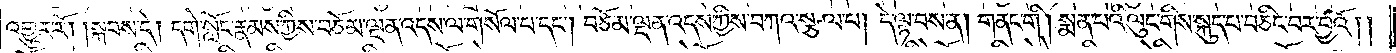འགྱུར་རོ། །སྐབས་དེ། དགེ་སློང་རྣམས་ཀྱིས་བཅོམ་ལྡན་འདས་ལ་གསོལ་པ་དང༌། བཅོམ་ལྡན་འདས་ཀྱིས་བཀའ་སྩལ་པ། དེ་ལྟ་བས་ན། གནང་གི། སྨན་པའི་ལུང་གིས་སྐུད་པ་བཅིང་བར་བྱའོ། །
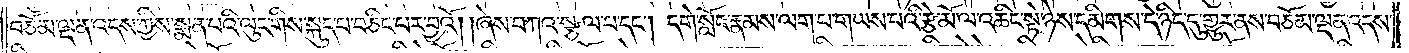བཅོམ་ལྡན་འདས་ཀྱིས་སྨན་པའི་ལུང་གིས་སྐུད་པ་བཅིང་བར་བྱའོ། །ཞེས་བཀའ་སྩལ་པ་དང༌། དགེ་སློང་རྣམས་ལག་པ་གཡས་པའི་རྩེ་མོ་ལ་འཆིང་སྟེ་ཉེས་དམིགས་དེ་ཉིད་དུ་གྱུར་ནས་བཅོམ་ལྡན་འདས་
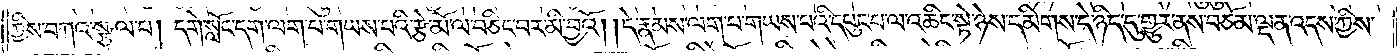ཀྱིས་བཀའ་སྩལ་པ། དགེ་སློང་དག་ལག་པ་གཡས་པའི་རྩེ་མོ་ལ་བཅིང་བར་མི་བྱའོ། །དེ་རྣམས་ལག་པ་གཡས་པའི་དཔུང་པ་ལ་འཆིང་སྟེ་ཉེས་དམིགས་དེ་ཉིད་དུ་གྱུར་ནས་བཅོམ་ལྡན་འདས་ཀྱིས་
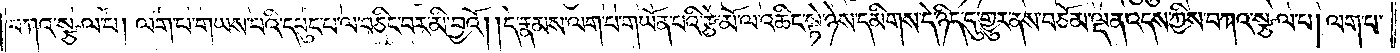བཀའ་སྩལ་པ། ལག་པ་གཡས་པའི་དཔུང་པ་ལ་བཅིང་བར་མི་བྱའོ། །དེ་རྣམས་ལག་པ་གཡོན་པའི་རྩེ་མོ་ལ་འཆིང་སྟེ་ཉེས་དམིགས་དེ་ཉིད་དུ་གྱུར་ནས་བཅོམ་ལྡན་འདས་ཀྱིས་བཀའ་སྩལ་པ། ལག་པ་
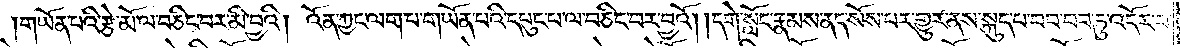།གཡོན་པའི་རྩེ་མོ་ལ་བཅིང་བར་མི་བྱའི། འོན་ཀྱང་ལག་པ་གཡོན་པའི་དཔུང་པ་ལ་བཅིང་བར་བྱའོ། །དགེ་སློང་རྣམས་ནད་སོས་པར་གྱུར་ནས་སྐུད་པ་བབ་བབ་ཏུ་འདོར་བ་
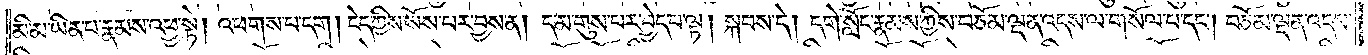མི་མ་ཡིན་པ་རྣམས་འཕྱ་སྟེ། འཕགས་པ་དག །ངེད་ཀྱིས་སོས་པར་བྱས་ན། ད་མ་གུས་པར་བྱེད་པ་ལྟ། སྐབས་དེ། དགེ་སློང་རྣམས་ཀྱིས་བཅོམ་ལྡན་འདས་ལ་གསོལ་པ་དང༌། བཅོམ་ལྡན་འདས་
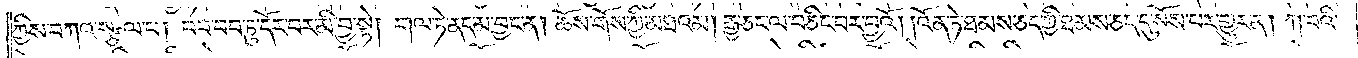ཀྱིས་བཀའ་སྩལ་པ། བབ་བབ་ཏུ་དོར་བར་མི་བྱ་སྟེ། གལ་ཏེ་ནད་མ་བྱང་ན། ཆོས་གོས་ཀྱི་མཐའམ། རྒྱ་ཅང་ལ་བཅིང་བར་བྱའོ། །འོན་ཏེ་ཐམས་ཅད་ཀྱི་ཐམས་ཅད་དུ་སོས་པར་གྱུར་ན། ཀ་བའི་
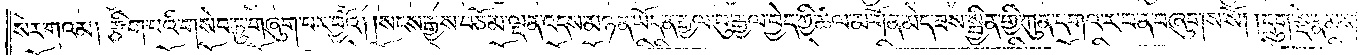སེར་གའམ། རྩིག་པའི་གསེབ་ཏུ་གཞུག་པར་བྱའོ། །སངས་རྒྱས་བཅོམ་ལྡན་འདས་མཉན་ཡོད་ན་རྒྱལ་བུ་རྒྱལ་བྱེད་ཀྱི་ཚལ་མགོན་མེད་ཟས་སྦྱིན་གྱི་ཀུན་དགའ་ར་བ་ན་བཞུགས་སོ། །དྲུག་སྡེ་རྣམས་
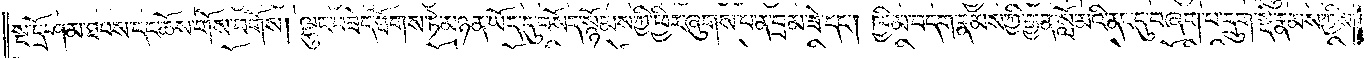སྔ་དྲོ་ཤམ་ཐབས་དང་ཆོས་གོས་བགོས། ལྷུང་བཟེད་ཐོགས་ཏེ་མཉན་ཡོད་དུ་བསོད་སྙོམས་ཀྱི་ཕྱིར་ཞུགས་པ་ན་བྲམ་ཟེ་དང༌། ཁྱིམ་བདག་རྣམས་ཀྱི་རྒྱན་སློ་མའི་ནང་དུ་བཞག་པ་དྲུག་སྡེ་རྣམས་ཀྱིས་
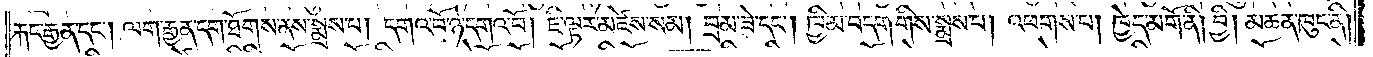རྐང་རྒྱན་དང༌། ལག་རྒྱན་དག་ཐོགས་ནས་སྨྲས་པ། དགའ་བོ་ཉེ་དགའ་བོ། ཇི་ལྟར་མཛེས་སམ། བྲམ་ཟེ་དང༌། ཁྱིམ་བདག་གིས་སྨྲས་པ། འཕགས་པ། ཁྱེད་མགོ་ནི། བྱི། མཆན་ཁུང་ནི།
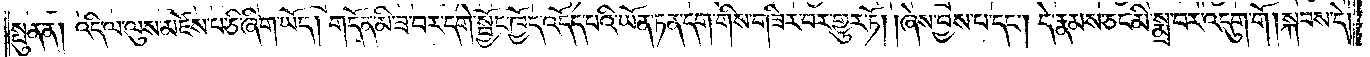སྤུན་ན། འདི་ལ་ལུས་མཛེས་པ་ཅི་ཞིག་ཡོད། གདོན་མི་ཟ་བར་དགེ་སྦྱོང་ཁྱོད་འདོད་པའི་ཡོན་ཏན་དག་གིས་གཟིར་བར་གྱུར་ཏོ། །ཞེས་བྱས་པ་དང༌། དེ་རྣམས་ཅང་མི་སྨྲ་བར་འདུག་གོ །སྐབས་དེ།
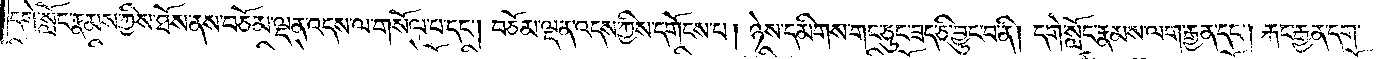དགེ་སློང་རྣམས་ཀྱིས་ཐོས་ནས་བཅོམ་ལྡན་འདས་ལ་གསོལ་པ་དང༌། བཅོམ་ལྡན་འདས་ཀྱིས་དགོངས་པ། ཉེས་དམིགས་གང་ཅུང་ཟད་ཅི་བྱུང་བ་ནི། དགེ་སློང་རྣམས་ལག་རྒྱན་དང༌། རྐང་རྒྱན་དག་
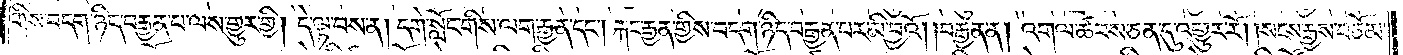གིས་བདག་ཉིད་བརྒྱན་པ་ལས་གྱུར་གྱི། དེ་ལྟ་བས་ན། དགེ་སློང་གིས་ལག་རྒྱན་དང༌། རྐང་རྒྱན་གྱིས་བདག་ཉིད་བརྒྱན་པར་མི་བྱའོ། །བརྒྱན་ན། འགལ་ཚབས་ཅན་དུ་འགྱུར་རོ། །སངས་རྒྱས་བཅོམ་
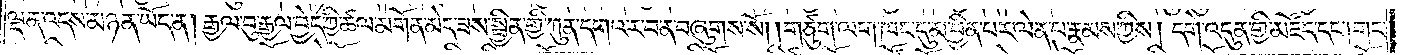ལྡན་འདས་མཉན་ཡོད་ན། རྒྱལ་བུ་རྒྱལ་བྱེད་ཀྱི་ཚལ་མགོན་མེད་ཟས་སྦྱིན་གྱི་ཀུན་དགའ་ར་བ་ན་བཞུགས་སོ། །གཙུག་ལག་ཁང་དུ་མ་བྱིན་པར་ལེན་པ་རྣམས་ཀྱིས། དགེ་འདུན་གྱི་མཛོད་དང༌། གང་
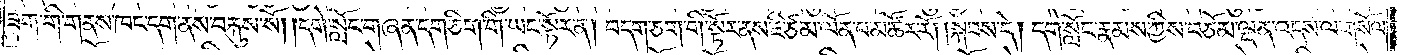ཟག་གི་གནས་ཁང་དག་ནས་བརྐུས་སོ། །དགེ་སློང་གཞན་དག་ཅིག་གི་ཡང་སྟོར་ན། བདག་ཅག་གི་སྟོར་ནས་ཇི་ཙམ་ལོན་པ་མ་ཚོར་རོ། །སྐབས་དེ། དགེ་སློང་རྣམས་ཀྱིས་བཅོམ་ལྡན་འདས་ལ་གསོལ་
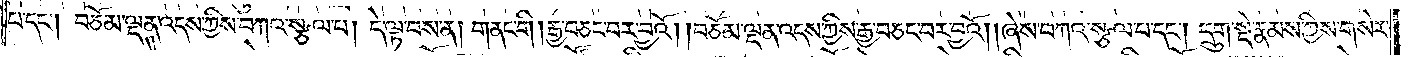པ་དང༌། བཅོམ་ལྡན་འདས་ཀྱིས་བཀའ་སྩལ་པ། དེ་ལྟ་བས་ན། གནང་གི །རྒྱ་བཅང་བར་བྱའོ། །བཅོམ་ལྡན་འདས་ཀྱིས་རྒྱ་བཅང་བར་བྱའོ། །ཞེས་བཀའ་སྩལ་པ་དང༌། དྲུག་སྡེ་རྣམས་ཀྱིས་གསེར་
